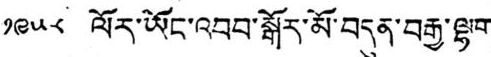༡༩༥༨ ལོར་ཡོང་འབབ་སྒོར་མོ་བདུན་བརྒྱ་ལྷག་
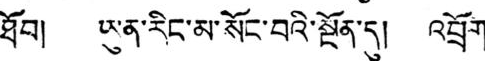ཐོབ། ཡུན་རིང་མ་སོང་བའི་སྔོན་དུ། འབྲོག་
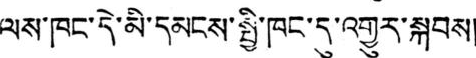ལས་ཁང་དེ་མི་དམངས་སྤྱི་ཁང་དུ་འགྱུར་སྐབས།
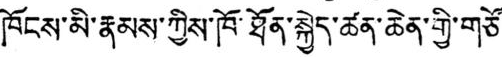ཁོངས་མི་རྣམས་ཀྱིས་ཁོ་ཐོན་སྐྱེད་ཚན་ཆེན་གྱི་གཙོ
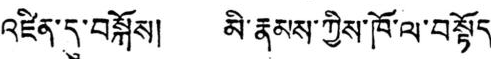འཛིན་དུ་བསྐོས། མི་རྣམས་ཀྱིས་ཁོ་ལ་བསྟོད་
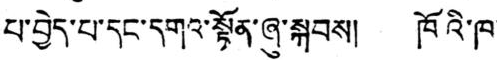པ་བྱེད་པ་དང་དགའ་སྟོན་ཞུ་སྐབས། ཁོའི་ཁ་
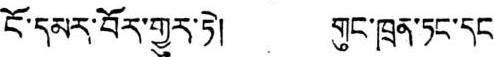ངོ་དམར་བོར་གྱུར་ཏེ། གུང་ཁྲན་ཏང་དང་
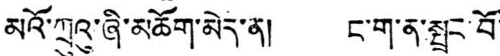མའོ་ཀྲུའུ་ཞི་མཆོག་མེད་ན། ང་ག་ན་སྤྲང་བོ་
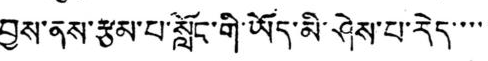བྱས་ནས་རྩམ་པ་སློང་གི་ཡོད་མི་ཤེས་པ་རེད་་་་་
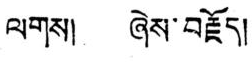ལགས། ཞེས་བརྗོད།
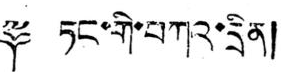༈ ཏང་གི་བཀའ་དྲིན།
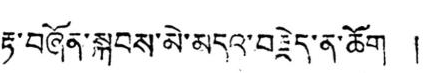རྟ་བཞོན་སྐབས་མེ་མདའ་བརྗེད་ན་ཆོག །
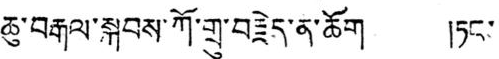ཆུ་བརྒལ་སྐབས་ཀོ་གྲུ་བརྗེད་ན་ཆོག །ཏང་
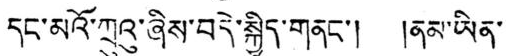དང་མའོ་ཀྲུའུ་ཞིས་བདེ་སྐྱིད་གནང་། ནམ་ཡིན་
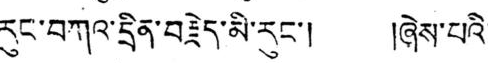རུང་བཀའ་དྲིན་བརྗེད་མི་རུང་། ཞེས་པའི་
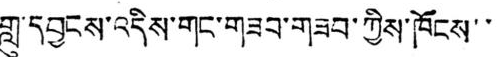གླུ་དབྱངས་འདིས་གང་གཟབ་གཟབ་ཀྱིས་ཀྱིས་ཁོངས་་
